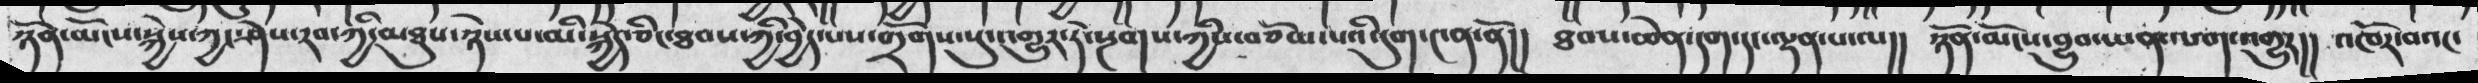ཉོན་མོངས་སྐྱེས་ཀྱང་ཤེས་རབ་ཀྱི་མཐུས་ཉེས་པ་མི་སྐྱེད་ཅིང་ཐབས་ཀྱི་བྱེད་པས་གྲོགས་སུ་འགྱུར་དེ་སྔགས་ཀྱིས་བཅོམ་པའི་དུག་༤ན་ནོ།།  ཐབས་ཆེན་དག་དང་ལྡན་པ་ལ།།  ཉོན་མོངས་བྱུབ་ཡན་ལག་འགྱུར།།  འཁོར་བའང་
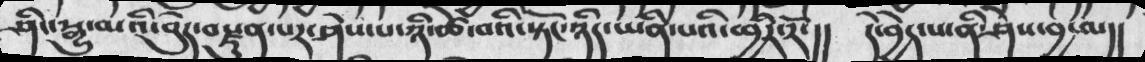ཤིང་སྒྱུ་མའི་བེུད་ནརྫུན་པར་ཤེས་པ་ཉི་ཚེ་བའི་སྟོང་ཉིང་ཡནི་པའི་ཕྱིར་རོ་།།  དེ་ཕྱེད་པ་ནི་ཤེས་བྱ་ལ།།
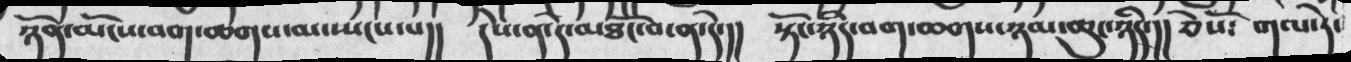ཉོན་མོངས་བག་ཆགས་མ་སྤངས་པ།།  དེས་ན་དེ་མཐོང་ན་དེ་།།  སྟོང་ཉིད་བག་ཆགས་ཉམ་ཆུང་ཉིད་།།  ཅེས་ོ༴  གལ་ཏེ་
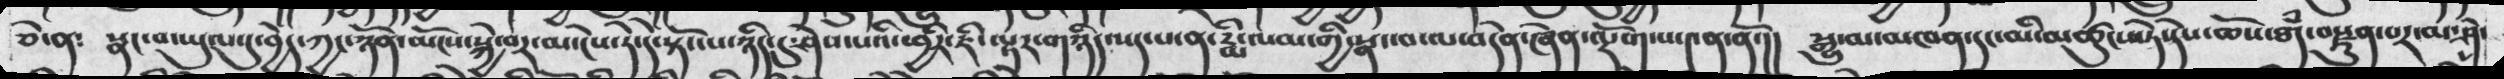ཅེ་ན༴  སྣང་བ་ཡུལ་དུ་བྱེད་ཀྱང་ཉོན་མོངས་སྐྱེ་བར་མ་ངེས་ཏེ་དེ་སྟོང་པ་ཉིད་དུ་ཤེས་པའི་ཕྱིར་ཇི་ལྟར་གཉིད་སད་པ་ན་རྨི་ལམ་གྱི་སྣང་བ་བདེན་ཞེན་ལྡོག་པ་༤ན་ནོ་།།  སྒྱུ་མ་མཁན་དང་མི་མཚུངས་ཏེ་དེས་ཆོས་ཐཾད་བརྫུན་པར་མ་ཤེས་
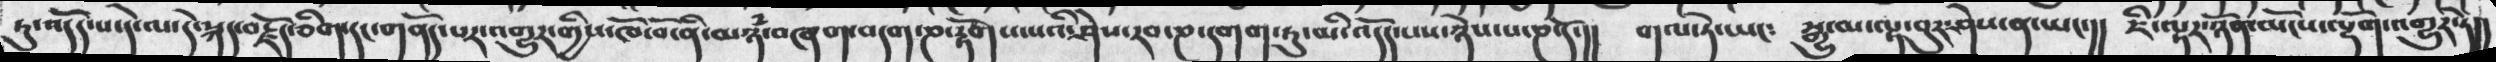ཏུ་འདོད་པ་དེ་ལ་དེ་སྐད་བརྗོད་ཅིག་དང་གནོད་པར་འགྱུར་གྱིས་ཁོ་བོ་ནི་མཉཾ་བཞག་བདག་ཎ་རྟོགས་པའི་ཤེས་རབ་ཎ་དགག་ཏུ་མི་འདོད་པས་ཉེས་པ་ཎ་དོ་།།  གལ་ཏེ་ཡང༴  སྒྱུ་མ་ལྟ་བུར་ཤེས་ན་ཡོང་།།  ཇི་ལྟར་ཉོན་མོངས་ལྷོག་འགྱུར་ཏེ།།
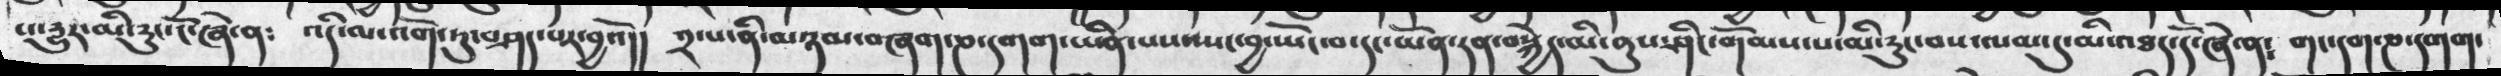ས་རྱུད་མི་ཏུང་ངོ་ཞེ་ན༴  འདི་མ་འགོ་ཏུ་བཤད་པར་བྱའོ།།  ༢་པ་ནི་མཉམ་བཞག་ཎ་དགག་ཡིན་པས་སྤང་བྱ་ཡོང་དང་ཡོན་ཏན་བསྐྱེད་མི་ནུས་ཤིང་གོམས་པ་མི་རུང་བས་ལམ་དུ་མི་འཐད་དོ་ཞེ་ན༴  གང་དག་ཎ་དགག་
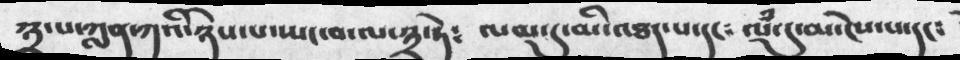༣་པ་ཀླན་ཀའི་ཉེས་པ་སྤང་བ་ལ་༣་ཏེ༴  ལམ་དུ་མི་འཐད་པ་དང༴  ལཾ་དུ་མ་ངེས་པ་དང༴
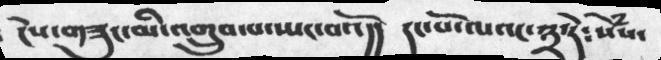ངེས་གཟུང་མི་འགྲུབ་པ་སྤང་བའོ།།  དང་པོ་ལའང་༣་དེ༴ སེཾས་
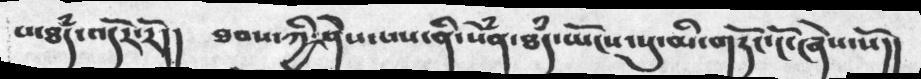པ་ཐཾད་འདོར་རོ།།  ཐབས་ཀྱི་ཤེས་པས་ནི་སེཾན་ཐཾད་ཡོངས་སུ་མི་གཏོང་ངོ་ཞེས་སོ།།
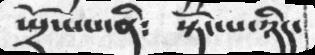སྤྲོས་༷པ་ནི༴  སྟོང་པ་ཉིད་
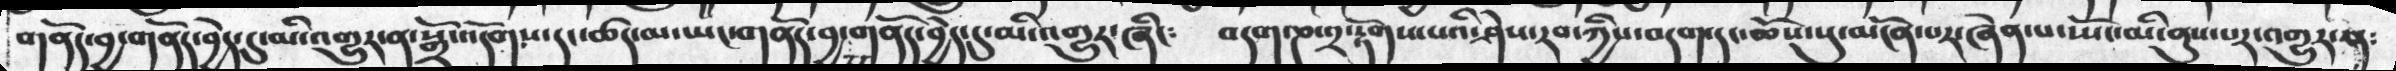གནོད་བྱ་གནོད་བྱེད་དུ་མི་འགྱུར་ན་སྒྲོ་འདོགས་དང་ཚད་མ་ཡང་གནོད་བྱ་གནོད་བྱེད་དུ་མི་འགྱུར་ཞིང༴   བདག་ཎ་༢་རྟོགས་པའི་ཤེས་རབ་ཀྱིས་བདག་དང་ཆོས་སུ་མངོན་པར་ཞེན་པ་སྤོང་མི་ནུས་པར་འགྱུར་ན༴
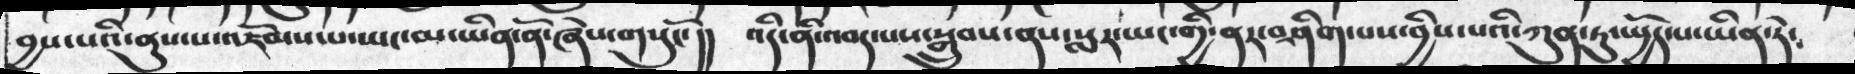བྱས་པའི་ནུས་པ་འཇོམས་པ་ཡང་མ་ཡིན་ནོ་ཞེས་གསུངོ།།    འདི་ནི་འབད་པས་སྒྲུབས་ནས་སླར་ཡང་གྱི་ནར་བཤིག་པས་བྱིས་པའི་ཀུན་ཏུ་ཡྱོད་པ་ཡིན་ཏེ༴
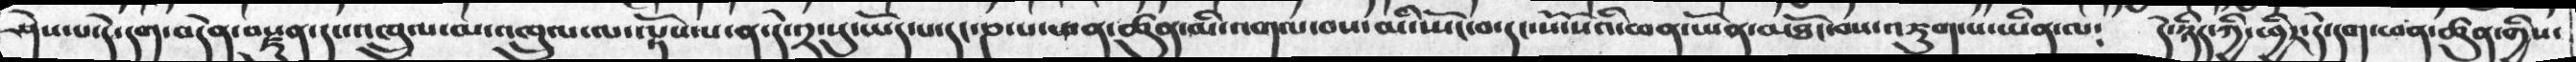ཤེས་པ་དེ་དདག་བདེན་བརྫུན་དང་འཁྲུལ་མ་འཁྲུལ་ལ་ལྟོས་པ་ན་དེ་༢་སུ་ཡོད་པ་དང་ཎ་པ་ཕན་ཚུན་མི་འགལ་བས་མི་ཡོང་བ་དང་སོ་སོའི་ཕན་ཡོན་མཐོང་བས་འཇུག་པ་ཡིན་ལ༴    དེ་ཉིད་ཀྱི་ཕྱིར་དེ་དག་ཕན་ཚུན་གྱིས་
